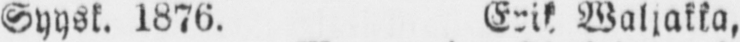Syysk. 1876. Erik Waljakka,
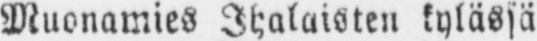Muonamies Ihalaisten kylässä
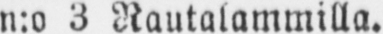n:o 3 Rautalammilla.
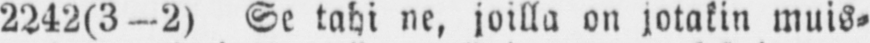2242(3—2) Se tahi ne, joilla on jotakin muis-
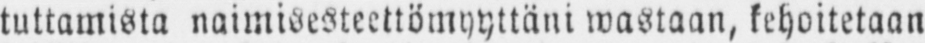tuttamista naimisesteettömyyttäni wastaan, kehoitetaan
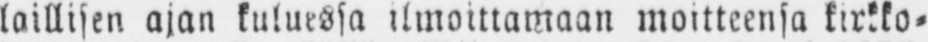laillisen ajan kuluessa ilmoittamaan moitteensa kirkko-
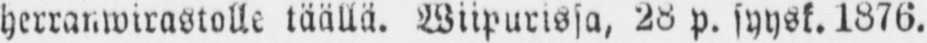herranwirastolle täällä. Wiipurissa, 28 p. syysk. 1876.
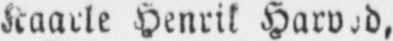Kaarle Henrik Harvod,
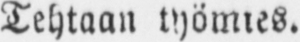Tehtaan työmies.
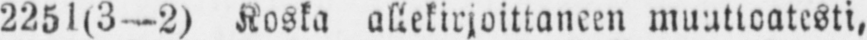2251(3—2) Koska allekirjoittaneen muuttoatesti,
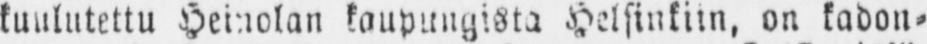kuuluteltu Heinolan kaupungista Helsinkiin, on kadon-
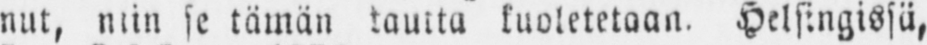nut, niin se tämän tautta kuoletetaan. Helsingissä,
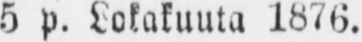5 p. Lokakuuta 1876.
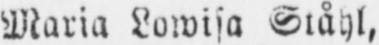Maria Lowisa Ståhl,
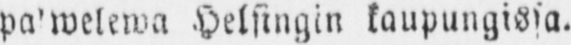palwelewa Helsingin kaupungissa.
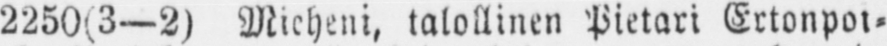2250(3 —2) Mieheni, talollinen Pietari Ertonpoi-
